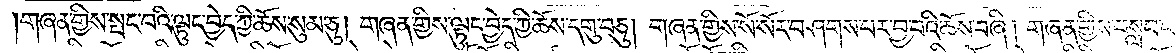གཞན་གྱིས་སྤང་བའི་ལྟུང་བྱེད་ཀྱི་ཆོས་སུམ་ཅུ། གཞན་གྱིས་ལྟུང་བྱེད་ཀྱི་ཆོས་དགུ་བཅུ། གཞན་གྱིས་སོ་སོར་བཤགས་པར་བྱ་བའི་ཆོས་བཞི། གཞན་གྱིས་བསླབ་པ་
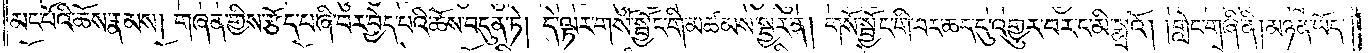མང་པོའི་ཆོས་རྣམས། གཞན་གྱིས་རྩོད་པ་ཞི་བར་བྱེད་པའི་ཆོས་བདུན་ཏེ། དེ་ལྟར་གསོ་སྦྱོང་གི་མཚམས་སྦྱར་ན། གསོ་སྦྱོང་གི་བར་ཆད་དུ་འགྱུར་བར་ང་མི་སྨྲའོ། །གླེང་གཞི་ནི། མཉན་ཡོད་
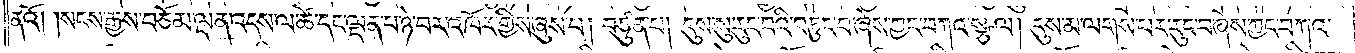ནའོ། །སངས་རྒྱས་བཅོམ་ལྡན་འདས་ལ་ཚེ་དང་ལྡན་པ་ཉེ་བར་འཁོར་གྱིས་ཞུས་པ། བཙུན་པ། དུས་སུ་རུང་བའི་བཏུང་བ་ཞེས་ཀྱང་བཀའ་སྩལ། དུས་མ་ལགས་པར་རུང་བ་ཞེས་ཀྱང་བཀའ་
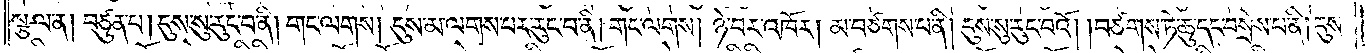སྩལ་ན། བཙུན་པ། དུས་སུ་རུང་བ་ནི། གང་ལགས། དུས་མ་ལགས་པར་རུང་བ་ནི། གང་ལགས། ཉེ་བར་འཁོར། མ་བཙགས་པ་ནི། དུས་སུ་རུང་བའོ། །བཙགས་ཏེ་ཆུ་དང་བསྲེས་པ་ནི། དུས་
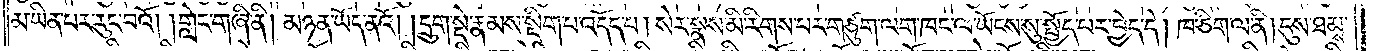མ་ཡིན་པར་རུང་བའོ། །གླེང་གཞི་ནི། མཉན་ཡོད་ནའོ། །དྲུག་སྡེ་རྣམས་སྡིག་པ་འདོད་པ། སེར་སྣས་མི་རིགས་པར་གཙུག་ལག་ཁང་ལ་ཡོངས་སུ་སྤྱོད་པར་བྱེད་དེ། ཁ་ཅིག་ལ་ནི། དུས་ཐམས་
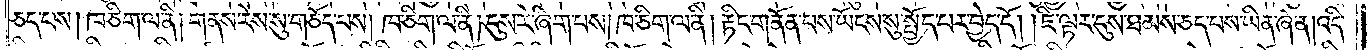ཅད་པས། ཁ་ཅིག་ལ་ནི། གནས་རེས་སུ་གཅོད་པས། ཁ་ཅིག་ལ་ནི། དུས་རེ་ཞིག་པས། ཁ་ཅིག་ལ་ནི། རྟིང་གནོན་པས་ཡོངས་སུ་སྤྱོད་པར་བྱེད་དོ། །ཇི་ལྟར་དུས་ཐམས་ཅད་པས་ཡིན་ཞེ་ན། འདི་
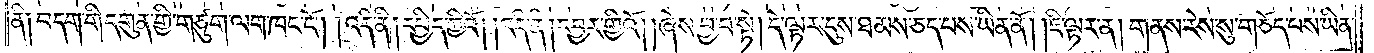ནི༑ བདག་གི་དགུན་གྱི་གཙུག་ལག་ཁང་ངོ༌། །འདི་ནི། དཔྱིད་ཀྱིའོ། །འདི་ནི། དབྱར་གྱིའོ། །ཞེས་བྱ་བ་སྟེ། དེ་ལྟར་དུས་ཐམས་ཅད་པས་ཡིན་ནོ། །ཇི་ལྟར་ན། གནས་རེས་སུ་གཅོད་པས་ཡིན་
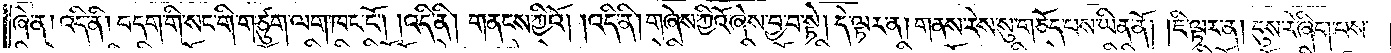ཞེ་ན། འདི་ནི། བདག་གི་སང་གི་གཙུག་ལག་ཁང་ངོ༌། །འདི་ནི། གནངས་ཀྱིའོ། །འདི་ནི། གཞེས་ཀྱིའོ་ཞེས་བྱ་བ་སྟེ། དེ་ལྟར་ན། གནས་རེས་སུ་གཅོད་པས་ཡིན་ནོ། །ཇི་ལྟར་ན། དུས་རེ་ཞིག་པས་
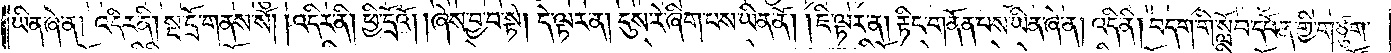ཡིན་ཞེ་ན། འདིར་ནི། སྔ་དྲོ་གནས་སོ། །འདིར་ནི། ཕྱི་དྲོའོ། །ཞེས་བྱ་བ་སྟེ། དེ་ལྟར་ན། དུས་རེ་ཞིག་པས་ཡིན་ནོ། ཇི་ལྟར་ན། རྟིང་གནོན་པས་ཡིན་ཞེ་ན། འདི་ནི། བདག་གི་སློབ་དཔོན་གྱི་གཙུག་
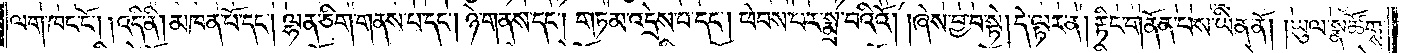ལག་ཁང་ངོ༌། །འདི་ནི། མཁན་པོ་དང༌། ལྷན་ཅིག་གནས་པ་དང༌། ཉེ་གནས་དང༌། གཏམ་འདྲེས་པ་དང༌། ཕེབས་པར་སྨྲ་བའིའོ། །ཞེས་བྱ་བ་སྟེ། དེ་ལྟར་ན། རྟིང་གནོན་པས་ཡིན་ནོ། །ཡུལ་སྣ་ཚོགས་
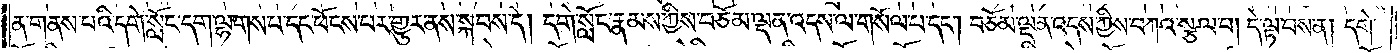ན་གནས་པའི་དགེ་སློང་དག་ལྷགས་པ་དང་ཕོངས་པར་གྱུར་ནས་སྐབས་དེ། དགེ་སློང་རྣམས་ཀྱིས་བཅོམ་ལྡན་འདས་ལ་གསོལ་པ་དང༌། བཅོམ་ལྡན་འདས་ཀྱིས་བཀའ་སྩལ་པ། དེ་ལྟ་བས་ན། དགེ་
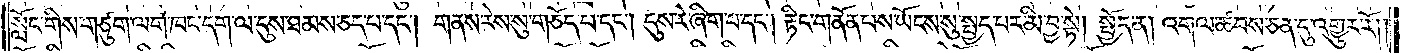སློང་གིས་གཙུག་ལག་ཁང་དག་ལ་དུས་ཐམས་ཅད་པ་དང༌། གནས་རེས་སུ་གཅོད་པ་དང༌། དུས་རེ་ཞིག་པ་དང༌། རྟིང་གནོན་པས་ཡོངས་སུ་སྤྱད་པར་མི་བྱ་སྟེ། སྤྱོད་ན། འགལ་ཚབས་ཅན་དུ་འགྱུར་རོ།    །
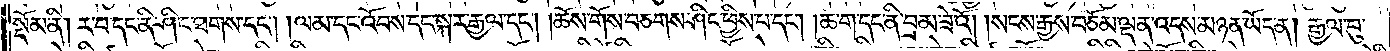སྡོམ་ནི། ར་བ་དང་ནི་ཤིང་ཐགས་དང༌། །ལམ་དང་འོབས་དང་སྐར་རྒྱལ་དང༌། །ཆོས་གོས་བཅགས་ཤིང་ཕྱིས་པ་དང༌། །ཆ་ག་དང་ནི་བྲམ་ཟེའོ། །སངས་རྒྱས་བཅོམ་ལྡན་འདས་མཉན་ཡོད་ན། རྒྱལ་བུ་
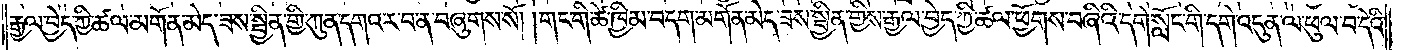རྒྱལ་བྱེད་ཀྱི་ཚལ་མགོན་མེད་ཟས་སྦྱིན་གྱི་ཀུན་དགའ་ར་བ་ན་བཞུགས་སོ། །གང་གི་ཚེ་ཁྱིམ་བདག་མགོན་མེད་ཟས་སྦྱིན་གྱིས་རྒྱལ་བྱེད་ཀྱི་ཚལ་ཕྱོགས་བཞིའི་དགེ་སློང་གི་དགེ་འདུན་ལ་ཕུལ་བ་དེའི་
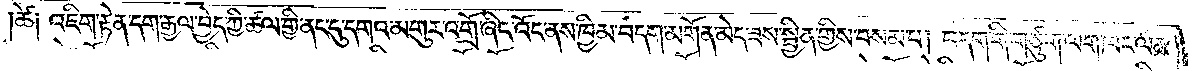ཚེ༑ འཇིག་རྟེན་དག་རྒྱལ་བྱེད་ཀྱི་ཚལ་གྱི་ནང་དུ་དགའ་མགུར་འགྲོ་ཞིང་འོང་ནས་ཁྱིམ་བདག་མགོན་མེད་ཟས་སྦྱིན་གྱིས་བསམ་པ། བདག་གི་གཙུག་ལག་ཁང་ལམ་
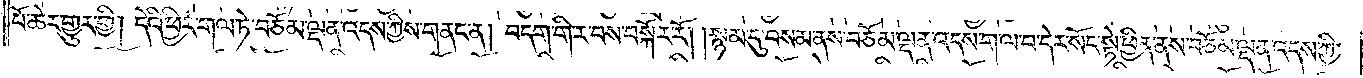པོ་ཆེར་གྱུར་གྱི། དེའི་ཕྱིར་གལ་ཏེ་བཅོམ་ལྡན་འདས་ཀྱིས་གནང་ན། བདག་གི་ར་བས་བསྐོར་རོ། །སྙམ་དུ་བསམ་ནས་བཅོམ་ལྡན་འདས་ག་ལ་བ་དེར་སོང་སྟེ་ཕྱིན་ནས་བཅོམ་ལྡན་འདས་ཀྱི་
